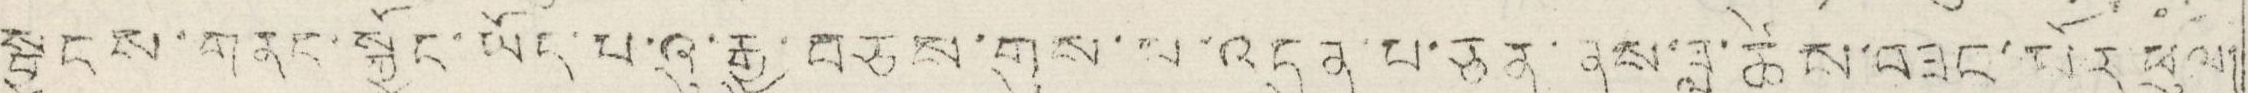སྦྱངས་གནང་སྐྱོང་ཡོད་པ་ཞུ་རྒྱུ་བཅས་གུས་པ་འདུན་པ་ཅན་ནས་ཟླ་ཚེས་བཟང་པོར་ཕུལ།
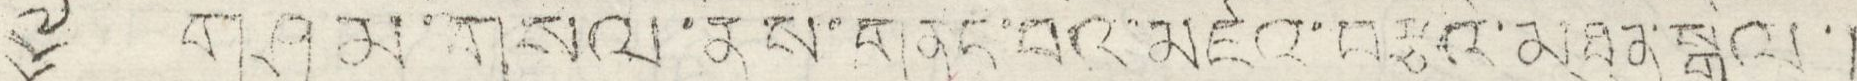༈ གཤམ་གསལ་ནས་གནང་བའི་མཛའ་བརྩེའི་མཐུན་སྒྲིལ་།
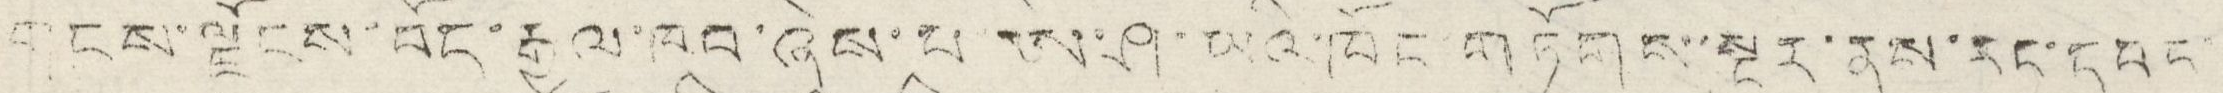གངས་ལྗོངས་བོད་རྒྱལ་ཁབ་ཞེས་པ་ཨེ་ཤ་ཡའི་ཁོང་གཏོགས་སྔར་ནས་རང་དབང་
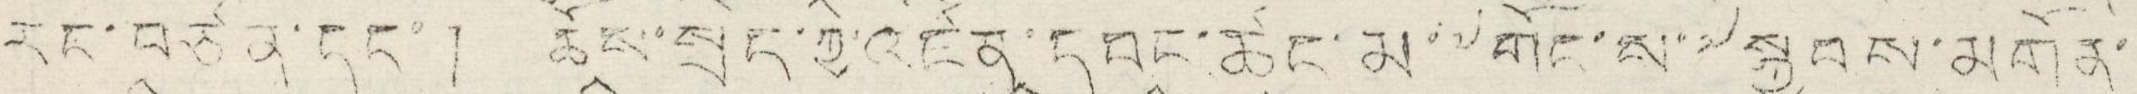རང་བཙན་དང་། ཆོས་སྲིད་ཀྱི་འཛིན་དབང་ཚང་མ་༸གོང་ས་༸སྐྱབས་མགོན་
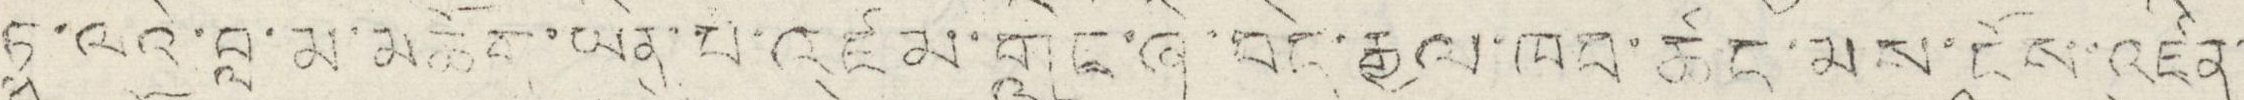ཏ་ལའི་བླ་མ་མཆོག་ཡིན་པ་འཛམ་གླིང་ཞི་བདེ་རྒྱལ་ཁབ་ཚང་མས་ངོས་འཛིན་
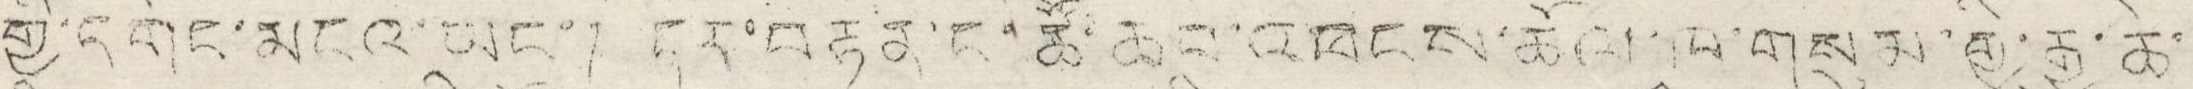གྱི་དགོང་མངའ་ཡང་། དེར་བརྟེན་ང་ཚོ་ཆབ་འཁེངས་ཆོལ་ཁ་གསུམ་གྱི་རྒྱ་ཆེ་
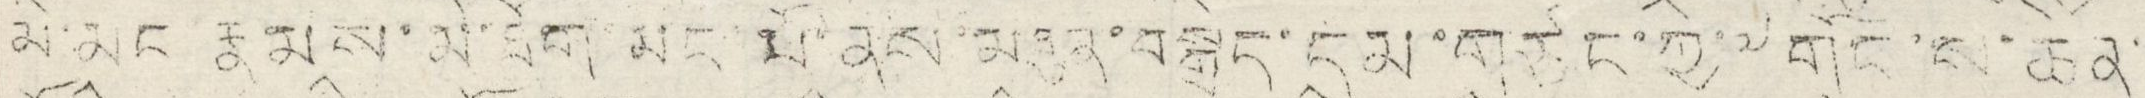མི་མང་རྣམས་མི་ཐོག་མང་པོ་ནས་མཐུན་བསྒྲིད་དམ་གཙང་གྱི་༸གོང་ས་ཆེན་
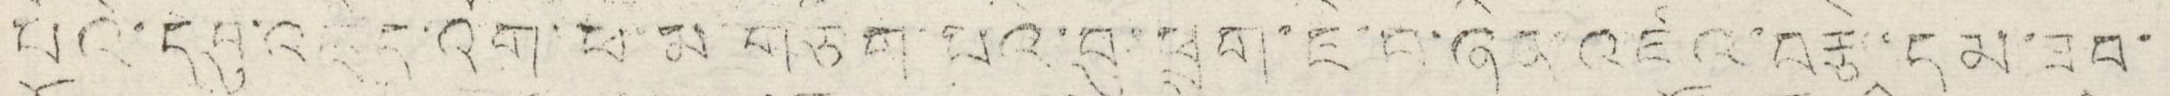པོའི་དབུ་འཁྲིད་འོག་ཕ་མ་གཅིག་པའི་བུ་ཕྲུག་ཇི་བཞིན་འཛའ་བརྩེ་དམ་ཟབ་
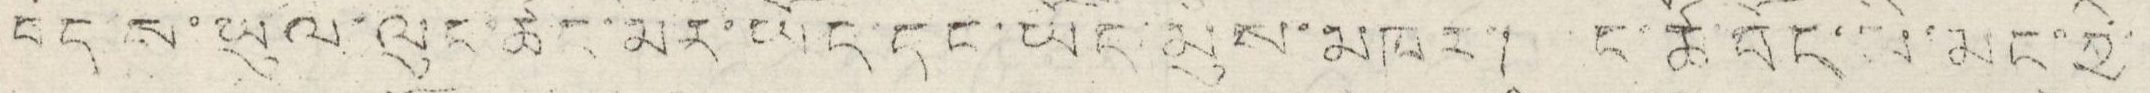བོད་ས་ཡུལ་ལུང་ཚང་མར་ཡོད་དང་ཡོད་མུས་མཁར་། ང་ཚོ་བོད་མི་མང་ཀྱི་
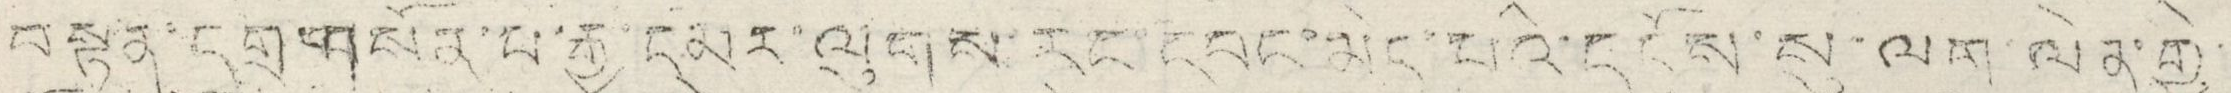བསྟན་དགྲ་གསོན་པ་རྒྱ་དམར་ལུགས་རང་དབང་མེད་པའི་དངོས་སུ་ལག་ལེན་གྱི་
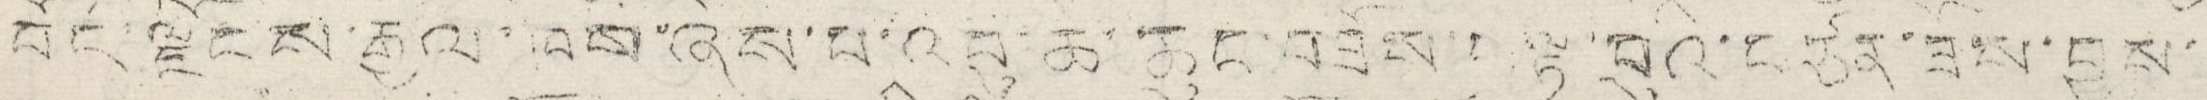བོད་ལྗོངས་རྒྱལ་ཁབ་ཞེས་པ་འབུ་ཆེ་ཆུང་བཟོས་བ་ལྟ་བུའི་བཙན་ཟོས་བྱས་
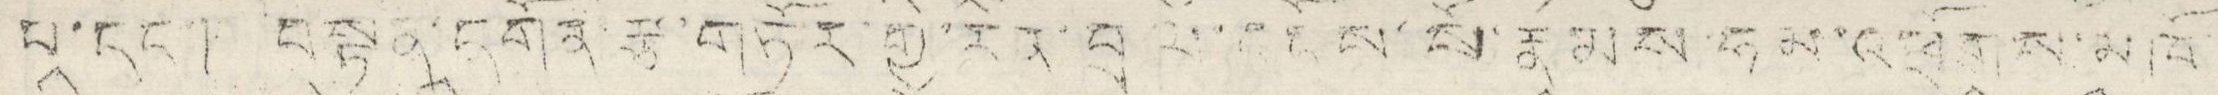པ་དང་། བསྟན་དགོན་རྩ་གཏོང་གྱི་རིན་བྲལ་དངོས་སོ་རྣམས་ཧམ་འཕྲོགས་འཁོ་
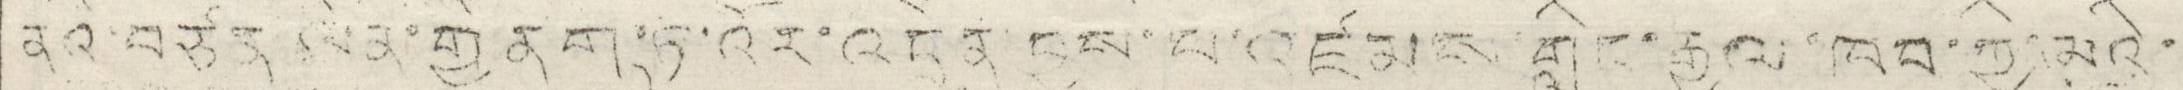ནའི་བཙན་ལེན་གྱི་ནག་ཏུ་འོར་འདྲེན་བྱས་པ་འཛམས་གླིང་རྒྱལ་ཁབ་ཀྱི་མའི་
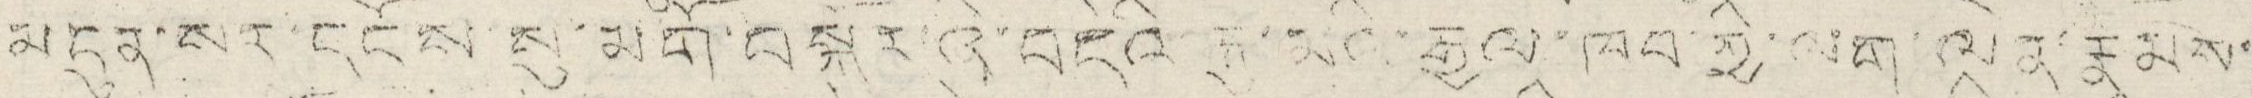མདུན་སར་དངོས་སི་མགོ་བསྐོར་ཞི་བདེའི་རྐུ་མའི་རྒྱལ་ཁབ་ཀྱི་ལག་ལེན་རྣམས་
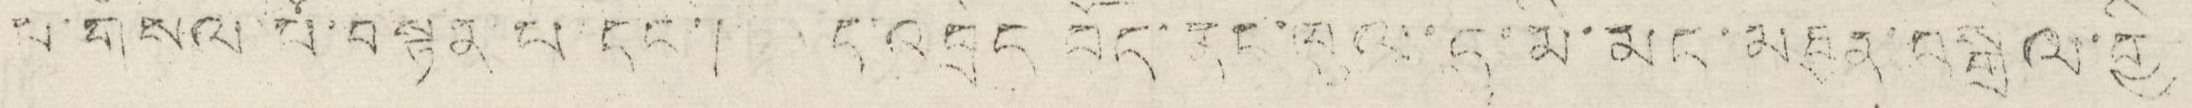པ་གསལ་པོ་བསྟན་པ་དང་། དེ་འབྲེང བོད་ནང་ཁུལ་དུ་མི་མང་མཐུན་བསྒྲིལ་གྱི
